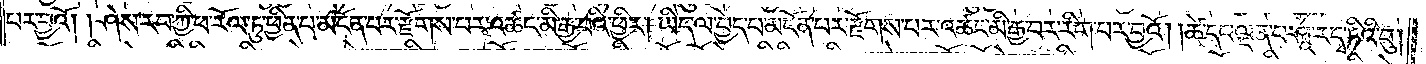པར་བྱའོ། །ཤེས་རབ་ཀྱི་ཕ་རོལ་ཏུ་ཕྱིན་པ་མངོན་པར་རྫོགས་པར་འཚང་མི་རྒྱ་བའི་ཕྱིར། ཡིད་ལ་བྱེད་པ་མངོན་པར་རྫོགས་པར་འཚང་མི་རྒྱ་བར་རིག་པར་བྱའོ། །ཚེ་དང་ལྡན་པ་ཤཱ་ར་དྭ་ཏིའི་བུ།
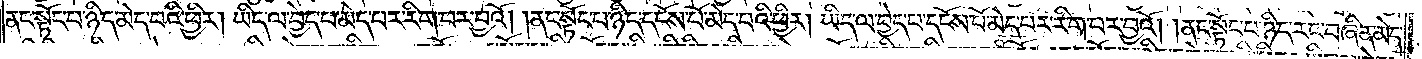ནང་སྟོང་པ་ཉིད་མེད་པའི་ཕྱིར། ཡིད་ལ་བྱེད་པ་མེད་པར་རིག་པར་བྱའོ། །ནང་སྟོང་པ་ཉིད་དངོས་པོ་མེད་པའི་ཕྱིར། ཡིད་ལ་བྱེད་པ་དངོས་པོ་མེད་པར་རིག་པར་བྱའོ། །ནང་སྟོང་པ་ཉིད་རང་བཞིན་མེད་
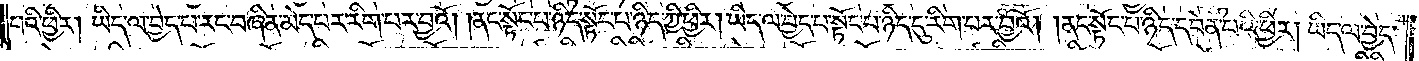པའི་ཕྱིར། ཡིད་ལ་བྱེད་པ་རང་བཞིན་མེད་པར་རིག་པར་བྱའོ། །ནང་སྟོང་པ་ཉིད་སྟོང་པ་ཉིད་ཀྱི་ཕྱིར། ཡིད་ལ་བྱེད་པ་སྟོང་པ་ཉིད་དུ་རིག་པར་བྱའོ། །ནང་སྟོང་པ་ཉིད་དབེན་པའི་ཕྱིར། ཡིད་ལ་བྱེད་
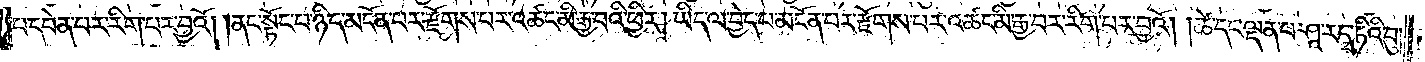པ་དབེན་པར་རིག་པར་བྱའོ། །ནང་སྟོང་པ་ཉིད་མངོན་པར་རྫོགས་པར་འཚང་མི་རྒྱ་བའི་ཕྱིར། ཡིད་ལ་བྱེད་པ་མངོན་པར་རྫོགས་པར་འཚང་མི་རྒྱ་བར་རིག་པར་བྱའོ། །ཚེ་དང་ལྡན་པ་ཤཱ་ར་དྭ་ཏིའི་བུ།
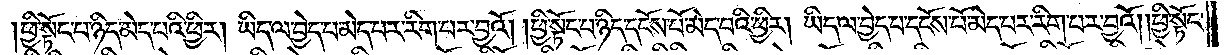ཕྱི་སྟོང་པ་ཉིད་མེད་པའི་ཕྱིར། ཡིད་ལ་བྱེད་པ་མེད་པར་རིག་པར་བྱའོ། །ཕྱི་སྟོང་པ་ཉིད་དངོས་པོ་མེད་པའི་ཕྱིར། ཡིད་ལ་བྱེད་པ་དངོས་པོ་མེད་པར་རིག་པར་བྱའོ། །ཕྱི་སྟོང་
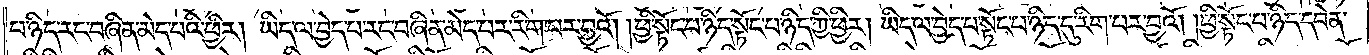པ་ཉིད་རང་བཞིན་མེད་པའི་ཕྱིར། ཡིད་ལ་བྱེད་པ་རང་བཞིན་མེད་པར་རིག་པར་བྱའོ། །ཕྱི་སྟོང་པ་ཉིད་སྟོང་པ་ཉིད་ཀྱི་ཕྱིར། ཡིད་ལ་བྱེད་པ་སྟོང་པ་ཉིད་དུ་རིག་པར་བྱའོ། །ཕྱི་སྟོང་པ་ཉིད་དབེན་
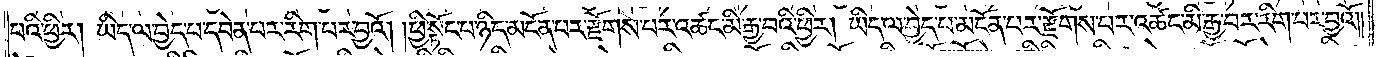པའི་ཕྱིར། ཡིད་ལ་བྱེད་པ་དབེན་པར་རིག་པར་བྱའོ། །ཕྱི་སྟོང་པ་ཉིད་མངོན་པར་རྫོགས་པར་འཚང་མི་རྒྱ་བའི་ཕྱིར། ཡིད་ལ་བྱེད་པ་མངོན་པར་རྫོགས་པར་འཚང་མི་རྒྱ་བར་རིག་པར་བྱའོ། །
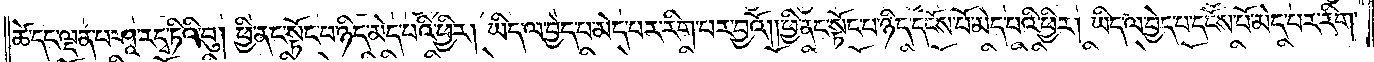ཚེ་དང་ལྡན་པ་ཤཱ་ར་དྭ་ཏིའི་བུ། ཕྱི་ནང་སྟོང་པ་ཉིད་མེད་པའི་ཕྱིར། ཡིད་ལ་བྱེད་པ་མེད་པར་རིག་པར་བྱའོ། །ཕྱི་ནང་སྟོང་པ་ཉིད་དངོས་པོ་མེད་པའི་ཕྱིར། ཡིད་ལ་བྱེད་པ་དངོས་པོ་མེད་པར་རིག་
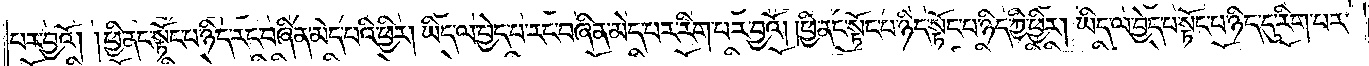པར་བྱའོ། །ཕྱི་ནང་སྟོང་པ་ཉིད་རང་བཞིན་མེད་པའི་ཕྱིར། ཡིད་ལ་བྱེད་པ་རང་བཞིན་མེད་པར་རིག་པར་བྱའོ། །ཕྱི་ནང་སྟོང་པ་ཉིད་སྟོང་པ་ཉིད་ཀྱི་ཕྱིར། ཡིད་ལ་བྱེད་པ་སྟོང་པ་ཉིད་དུ་རིག་པར་
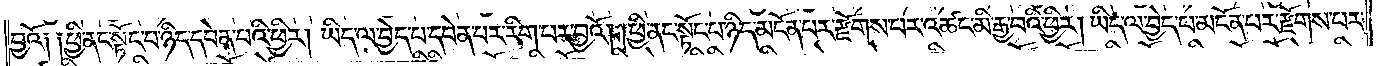བྱའོ༏ ༏ཕྱི་ནང་སྟོང་པ་ཉིད་དབེན་པའི་ཕྱིར། ཡིད་ལ་བྱེད་པ་དབེན་པར་རིག་པར་བྱའོ། །ཕྱི་ནང་སྟོང་པ་ཉིད་མངོན་པར་རྫོགས་པར་འཚང་མི་རྒྱ་བའི་ཕྱིར། ཡིད་ལ་བྱེད་པ་མངོན་པར་རྫོགས་པར་
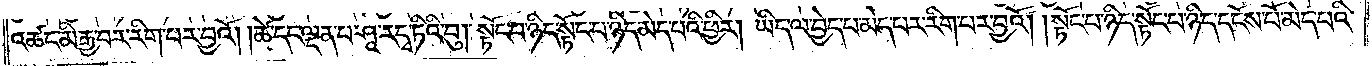འཚང་མི་རྒྱ་བར་རིག་པར་བྱའོ། །ཚེ་དང་ལྡན་པ་ཤཱ་ར་དྭ་ཏིའི་བུ། སྟོང་པ་ཉིད་སྟོང་པ་ཉིད་མེད་པའི་ཕྱིར། ཡིད་ལ་བྱེད་པ་མེད་པར་རིག་པར་བྱའོ། །སྟོང་པ་ཉིད་སྟོང་པ་ཉིད་དངོས་པོ་མེད་པའི་
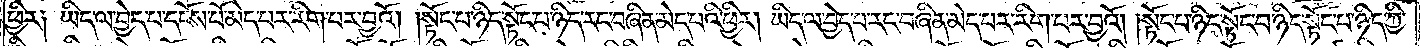ཕྱིར༏ ཡིད་ལ་བྱེད་པ་དངོས་པོ་མེད་པར་རིག་པར་བྱའོ། །སྟོང་པ་ཉིད་སྟོང་པ་ཉིད་རང་བཞིན་མེད་པའི་ཕྱིར། ཡིད་ལ་བྱེད་པ་རང་བཞིན་མེད་པར་རིག་པར་བྱའོ། །སྟོང་པ་ཉིད་སྟོང་པ་ཉིད་སྟོང་པ་ཉིད་ཀྱི་
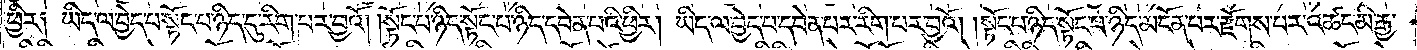ཕྱིར༏ ཡིད་ལ་བྱེད་པ་སྟོང་པ་ཉིད་དུ་རིག་པར་བྱའོ། །སྟོང་པ་ཉིད་སྟོང་པ་ཉིད་དབེན་པའི་ཕྱིར། ཡིད་ལ་བྱེད་པ་དབེན་པར་རིག་པར་བྱའོ། །སྟོང་པ་ཉིད་སྟོང་པ་ཉིད་མངོན་པར་རྫོགས་པར་འཚང་མི་རྒྱ་
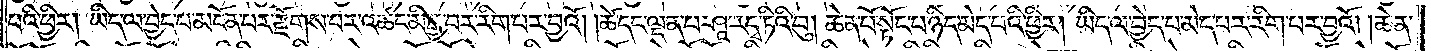བའི་ཕྱིར། ཡིད་ལ་བྱེད་པ་མངོན་པར་རྫོགས་པར་འཚང་མི་རྒྱ་བར་རིག་པར་བྱའོ། །ཚེ་དང་ལྡན་པ་ཤཱ་ར་དྭ་ཏིའི་བུ། ཆེན་པོ་སྟོང་པ་ཉིད་མེད་པའི་ཕྱིར། ཡིད་ལ་བྱེད་པ་མེད་པར་རིག་པར་བྱའོ། །ཆེན་
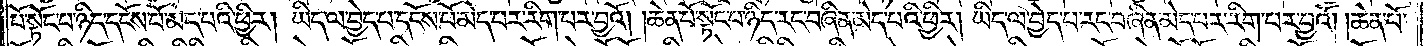པོ་སྟོང་པ་ཉིད་དངོས་པོ་མེད་པའི་ཕྱིར། ཡིད་ལ་བྱེད་པ་དངོས་པོ་མེད་པར་རིག་པར་བྱའོ། །ཆེན་པོ་སྟོང་པ་ཉིད་རང་བཞིན་མེད་པའི་ཕྱིར། ཡིད་ལ་བྱེད་པ་རང་བཞིན་མེད་པར་རིག་པར་བྱའོ། །ཆེན་པོ་
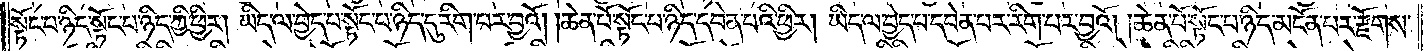སྟོང་པ་ཉིད་སྟོང་པ་ཉིད་ཀྱི་ཕྱིར། ཡིད་ལ་བྱེད་པ་སྟོང་པ་ཉིད་དུ་རིག་པར་བྱའོ། །ཆེན་པོ་སྟོང་པ་ཉིད་དབེན་པའི་ཕྱིར། ཡིད་ལ་བྱེད་པ་དབེན་པར་རིག་པར་བྱའོ། །ཆེན་པོ་སྟོང་པ་ཉིད་མངོན་པར་རྫོགས་
